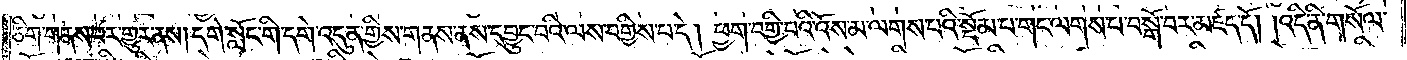ཅིག་གནས་པར་གྱུར་ནས། དགེ་སློང་གི་དགེ་འདུན་གྱིས་གནས་ནས་དབྱུང་བའི་ལས་བགྱིས་པ་དེ། ཕྱག་བགྱི་པའི་འོས་མ་ལགས་པའི་སྡོམ་པ་གང་ལགས་པ་བསྒོ་བར་མཛད་དོ། །འདི་ནི་གསོལ་
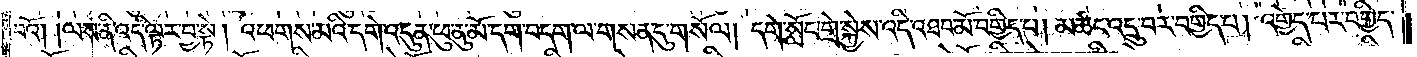བའོ། །ལས་ནི་འདི་ལྟར་བྱ་སྟེ། འཕགས་མའི་དགེ་འདུན་ཕུ་ནུ་མོ་དག་བདག་ལ་གསན་དུ་གསོལ། དགེ་སློང་གྲེ་སྐྱེས་འདི་འཐབ་མོ་བགྱིད་པ། མཚང་འདྲུ་བར་བགྱིད་པ། འགྱེད་པར་བགྱིད་
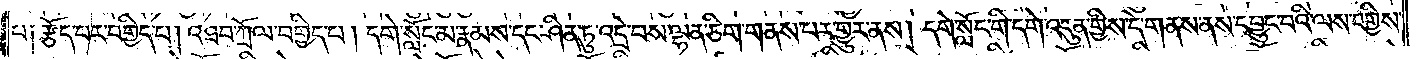པ༑ རྩོད་པར་བགྱིད་པ། འཐབ་ཀྲོལ་བགྱིད་པ། དགེ་སློང་མ་རྣམས་དང་ཤིན་ཏུ་འདྲེ་བས་ལྷན་ཅིག་གནས་པར་གྱུར་ནས། དགེ་སློང་གི་དགེ་འདུན་གྱིས་དེ་གནས་ནས་དབྱུང་བའི་ལས་བགྱིས་
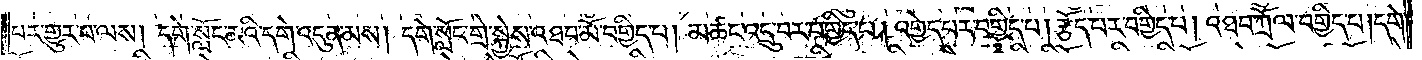པར་གྱུར་པ་ལས། དགེ་སློང་མའི་དགེ་འདུན་མས། དགེ་སློང་གྲེ་སྐྱེས་འཐབ་མོ་བགྱིད་པ། མཚང་འདྲུ་བར་བགྱིད་པ། འགྱེད་པར་བགྱིད་པ། རྩོད་པར་བགྱིད་པ། འཐབ་ཀྲོལ་བགྱིད་པ། དགེ་
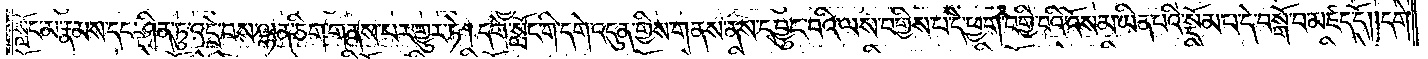སློང་མ་རྣམས་དང་ཤིན་ཏུ་འདྲེ་བས་ལྷན་ཅིག་གནས་པར་གྱུར་ཏེ། དགེ་སློང་གི་དགེ་འདུན་གྱིས་གནས་ནས་དབྱུང་བའི་ལས་བགྱིས་པ་དེ་ཕྱག་བགྱི་བའི་འོས་མ་ཡིན་པའི་སྡོམ་པ་དེ་བསྒོ་བ་མཛད་དོ། །དགེ་
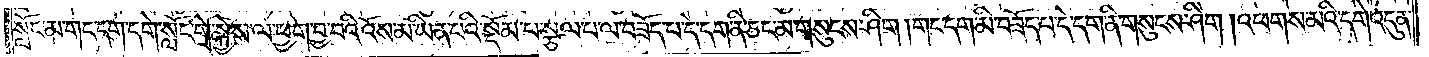སློང་མ་གང་དག་དགེ་སློང་གྲེ་སྐྱེས་ལ་ཕྱག་བྱ་བའི་འོས་མ་ཡིན་པའི་སྡོམ་པ་སྩལ་པ་ལ་བཟོད་པ་དེ་དག་ནི་ཅང་མ་གསུངས་ཤིག །གང་དག་མི་བཟོད་པ་དེ་དག་ནི་གསུངས་ཤིག །འཕགས་མའི་དགེ་འདུན་
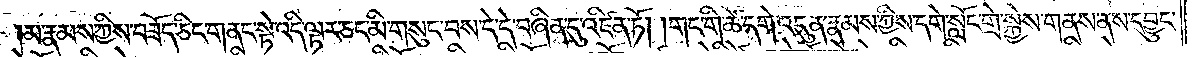མ་རྣམས་ཀྱིས་བཟོད་ཅིང་གནང་སྟེ་འདི་ལྟར་ཅང་མི་གསུང་བས་དེ་དེ་བཞིན་དུ་འཛིན་ཏོ། །གང་གི་ཚེ་དགེ་འདུན་རྣམས་ཀྱིས་དགེ་སློང་གྲེ་སྐྱེས་གནས་ནས་དབྱུང་
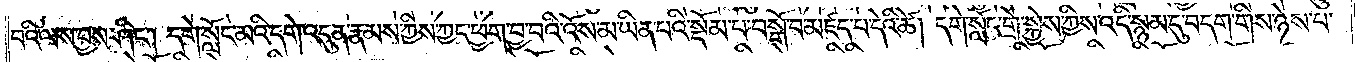བའི་ལས་བྱས་ཤིང༌། དགེ་སློང་མའི་དགེ་འདུན་རྣམས་ཀྱིས་ཀྱང་ཕྱག་བྱ་བའི་འོས་མ་ཡིན་པའི་སྡོམ་པ་བསྒོ་བ་མཛད་པ་དེའི་ཚེ། དགེ་སློང་གྲེ་སྐྱེས་ཀྱིས་འདི་སྙམ་དུ་བདག་གིས་ཉེས་པ་
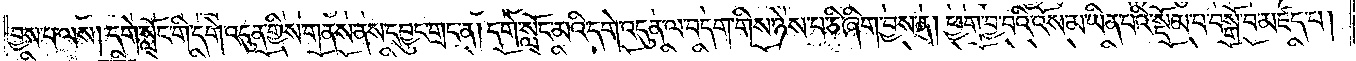བྱས་པ་ལས། དགེ་སློང་གི་དགེ་འདུན་གྱིས་གནས་ནས་དབྱུང་གྲང་ན། དགེ་སློང་མའི་དགེ་འདུན་ལ་བདག་གིས་ཉེས་པ་ཅི་ཞིག་བྱས་ན། ཕྱག་བྱ་བའི་འོས་མ་ཡིན་པའི་སྡོམ་པ་བསྒོ་བ་མཛད་པ།
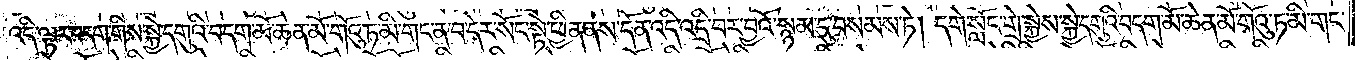འདི་ལྟར་བདག་གིས་སྐྱེ་དགུའི་བདག་མོ་ཆེན་མོ་གོའུ་ཏ་མི་གང་ན་བ་དེར་སོང་སྟེ་ཕྱིན་ནས་དོན་འདི་འདྲི་བར་བྱའོ་སྙམ་དུ་བསམས་ཏེ། དགེ་སློང་གྲེ་སྐྱེས་སྐྱེ་དགུའི་བདག་མོ་ཆེན་མོ་གོའུ་ཏ་མི་གང་
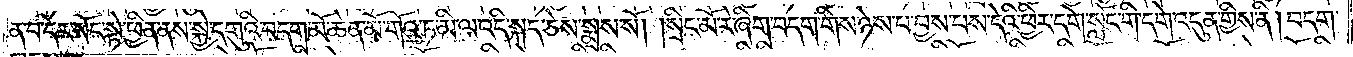ན་བ་དེར་སོང་སྟེ་ཕྱིན་ནས་སྐྱེ་དགུའི་བདག་མོ་ཆེན་མོ་གོའུ་ཏ་མི་ལ་འདི་སྐད་ཅེས་སྨྲས་སོ། །སྲིང་མོ་རེ་ཞིག་བདག་གིས་ཉེས་པ་བྱས་པས་དེའི་ཕྱིར་དགེ་སློང་གི་དགེ་འདུན་གྱིས་ནི། བདག་
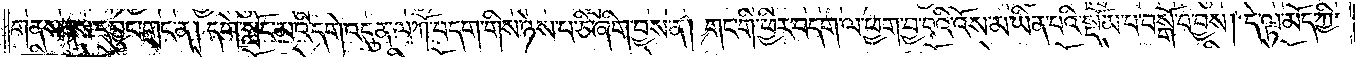གནས་ནས་དབྱུང་གྲང་ན། དགེ་སློང་མའི་དགེ་འདུན་ལ་ཀོ་བདག་གིས་ཉེས་པ་ཅི་ཞིག་བྱས་ན། གང་གི་ཕྱིར་བདག་ལ་ཕྱག་བྱ་བའི་འོས་མ་ཡིན་པའི་སྡོམ་པ་བསྒོ་བ་བྱས། དེ་ལྟ་མོད་ཀྱི་
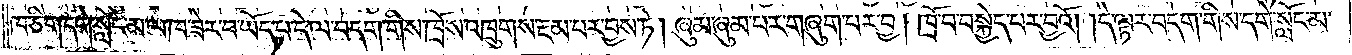ཁ་ཅིག་དགེ་སློང་མ་ལ་ཁ་ཟེར་བ་ཡོད་པ་དེ་ལ་བདག་གིས་ཁྲོས་འཁྲུགས་རྔམ་པར་བྱས་ཏེ། ཞུམ་ཞུམ་པར་གཞུག་པར་བྱ། ཁྲོ་བ་བསྐྱེད་པར་བྱའོ། །དེ་ལྟར་བདག་གིས་དགེ་སློང་མ་
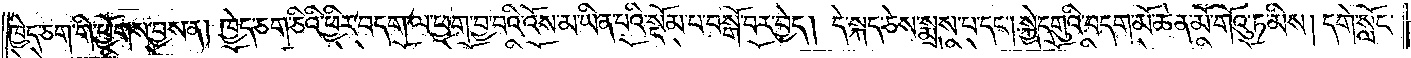ཁྱེད་ཅག་གི་ཕྱོགས་བྱས་ན། ཁྱེད་ཅག་ཅིའི་ཕྱིར་བདག་ལ་ཕྱག་བྱ་བའི་འོས་མ་ཡིན་པའི་སྡོམ་པ་བསྒོ་བར་བྱེད། དེ་སྐད་ཅེས་སྨྲས་པ་དང༌། སྐྱེ་དགུའི་བདག་མོ་ཆེན་མོ་གོའུ་ཏ་མིས། དགེ་སློང་
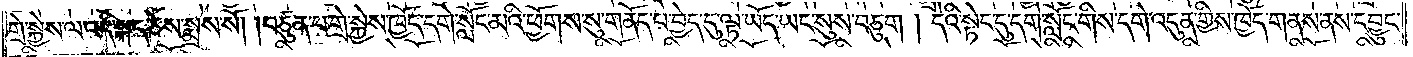གྲེ་སྐྱེས་ལ་འདི་སྐད་ཅེས་སྨྲས་སོ། །བཙུན་པ་གྲེ་སྐྱེས་ཁྱོད་དགེ་སློང་མའི་ཕྱོགས་སུ་གནོད་པ་བྱེད་དུ་ལྟ་ཡོད་ཡང་སུས་བཅུག །དེའི་སྟེང་དུ་དགེ་སློང་གིས་དགེ་འདུན་གྱིས་ཁྱོད་གནས་ནས་དབྱུང་
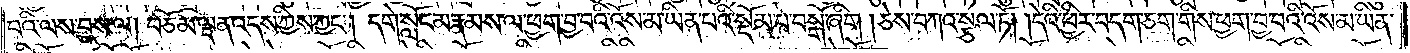བའི་ལས་བྱས་ལ། བཅོམ་ལྡན་འདས་ཀྱིས་ཀྱང༌། དགེ་སློང་མ་རྣམས་ལ་ཕྱག་བྱ་བའི་འོས་མ་ཡིན་པའི་སྡོམ་པ་བསྒོ་ཞིག །ཅེས་བཀའ་སྩལ་ཏོ། །དེའི་ཕྱིར་བདག་ཅག་གིས་ཕྱག་བྱ་བའི་འོས་མ་ཡིན་
